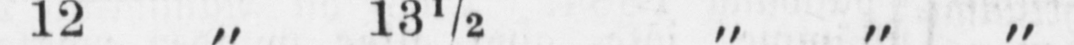12 „ 13½ „ „ „ „ „ „ —
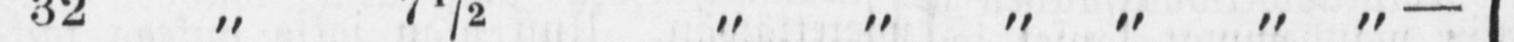32 „ 7½ „ „ „ „ „ „ —
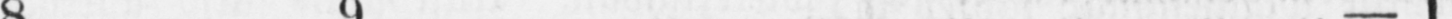8 " 9 „ „ „ „ „ „ —
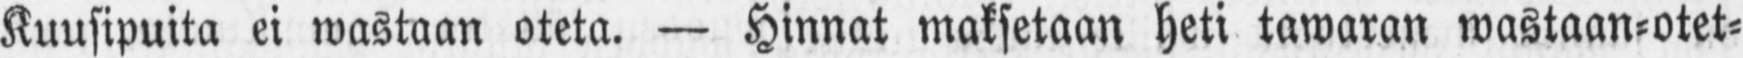Kuusipuita ei wastaan oteta. — Hinnat maksetaan heti tawaran wastaan-otet-
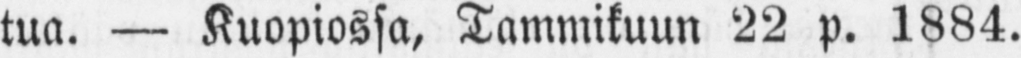tua. — Kuopiossa, Tammikuun 22 p. 1884.
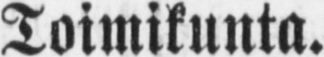Toimikunta.
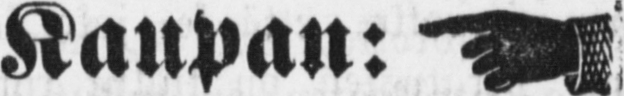Kaupan:
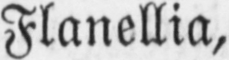Leninki-kankaita,
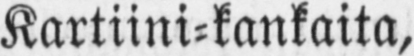Kartiini-kankaita,
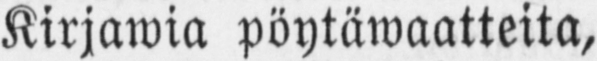Kirjawia pöytäwaatteita,
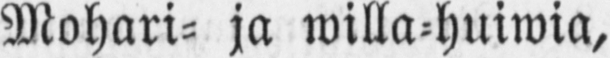Mohari- ja willa-huiwia,
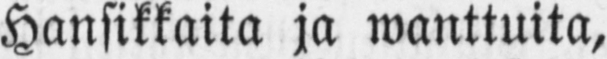Hansikkaita ja wanttuita,
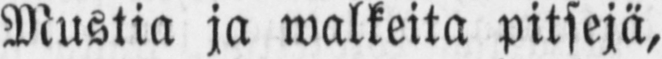Mustia ja walkeita pitsejä,
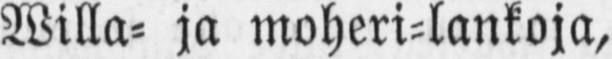Willa- ja moheri-lankoja,
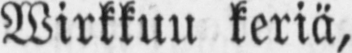Wirkkuu keriä,
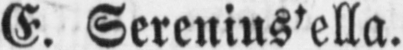E. Serenius'ella.
